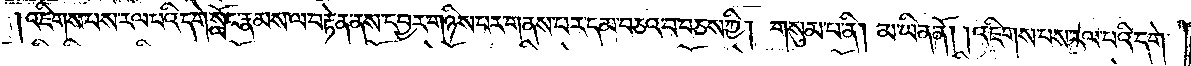།འཇིགས་པས་རལ་པའི་དགེ་སློང་རྣམས་ལ་བརྟེན་ནས་དབྱར་གཉིས་པར་གནས་པར་དམ་བཅའ་བ་བཅས་ཀྱི། གསུམ་པ་ནི། མ་ཡིན་ནོ། །འཇིགས་པས་རལ་པའི་དགེ་
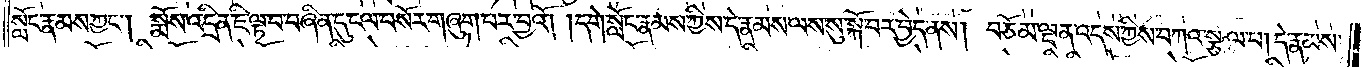སློང་རྣམས་ཀྱང༌། སྨོས་འདྲིན་ཇི་ལྟ་བ་བཞིན་དུ་ངལ་བསོར་གཞུག་པར་བྱའོ། །དགེ་སློང་རྣམས་ཀྱིས་དེ་རྣམས་ལས་སུ་སྐོ་བར་བྱེད་ནས། བཅོམ་ལྡན་འདས་ཀྱིས་བཀའ་སྩལ་པ། དེ་རྣམས་
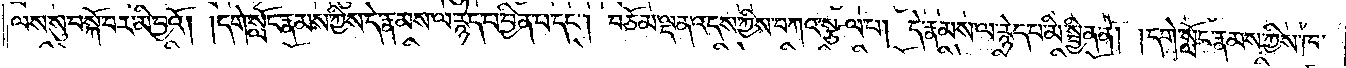ལས་སུ་བསྐོ་བར་མི་བྱའོ། །དགེ་སློང་རྣམས་ཀྱིས་དེ་རྣམས་ལ་རྙེད་པ་བྱིན་པ་དང༌། བཅོམ་ལྡན་འདས་ཀྱིས་བཀའ་སྩལ་པ། དེ་རྣམས་ལ་རྙེད་པ་མི་སྦྱིན་ནོ། །དགེ་སློང་རྣམས་ཀྱིས་ཁ་
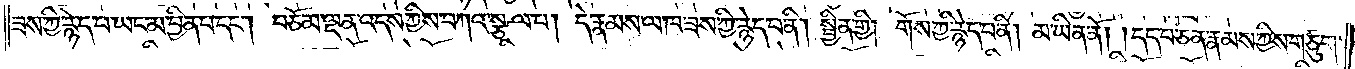ཟས་ཀྱི་རྙེད་པ་ཡང་མ་བྱིན་པ་དང༌། བཅོམ་ལྡན་འདས་ཀྱིས་བཀའ་སྩལ་པ། དེ་རྣམས་ལ་ཁ་ཟས་ཀྱི་རྙེད་པ་ནི། སྦྱིན་གྱི། གོས་ཀྱི་རྙེད་པ་ནི། མ་ཡིན་ནོ། །དད་པ་ཅན་རྣམས་ཀྱིས་གཙུག་
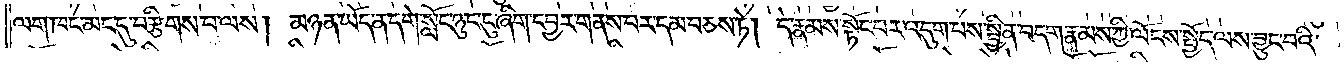ལག་ཁང་མང་དུ་བརྩིགས་པ་ལས། མཉན་ཡོད་ན་དགེ་སློང་ཉུང་ངུ་ཞིག་དབྱར་གནས་པར་དམ་བཅས་ཏེ། དེ་རྣམས་སྟོང་པར་འདུག་པས་སྦྱིན་བདག་རྣམས་ཀྱི་ལོངས་སྤྱོད་ལས་བྱུང་བའི་
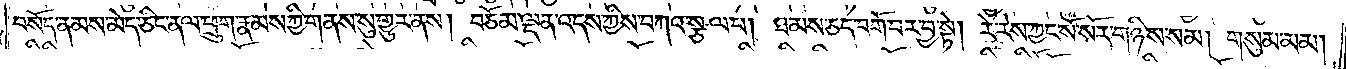བསོད་ནམས་མེད་ཅིང་ནལ་ཕྲུག་རྣམས་ཀྱི་གནས་སུ་གྱུར་ནས། བཅོམ་ལྡན་འདས་ཀྱིས་བཀའ་སྩལ་པ། ཐམས་ཅད་བགོ་བར་བྱ་སྟེ། རེ་རེས་ཀྱང་སོ་སོར་གཉིས་སམ། གསུམ་མམ།
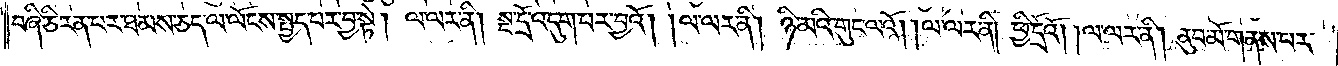བཞི་ཅི་རན་པར་ཐམས་ཅད་ལ་ལོངས་སྤྱད་པར་བྱ་སྟེ། ལ་ལར་ནི། སྔ་དྲོ་འདུག་པར་བྱའོ། །ལ་ལར་ནི། ཉི་མའི་གུང་ལའོ། །ལ་ལར་ནི། ཕྱི་དྲོའོ། །ལ་ལར་ནི། ནུབ་མོ་གནས་པར་
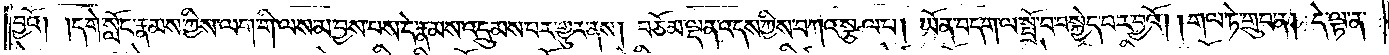བྱའོ། །དགེ་སློང་རྣམས་ཀྱིས་ལག་གི་ལས་མ་བྱས་པས་དེ་རྣམས་འདྲུམས་པར་གྱུར་ནས། བཅོམ་ལྡན་འདས་ཀྱིས་བཀའ་སྩལ་པ། ཡོན་བདག་ལ་སྤྲོ་བ་བསྐྱེད་པར་བྱའོ། །གལ་ཏེ་གྲུབ་ན། དེ་ལྟ་ན་
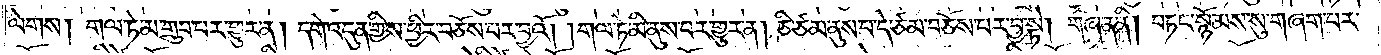ལེགས། གལ་ཏེ་མ་གྲུབ་པར་གྱུར་ན། དགེ་འདུན་གྱིས་ཕྱིར་བཅོས་པར་བྱའོ། །གལ་ཏེ་མི་ནུས་པར་གྱུར་ན། ཅི་ཙམ་ནུས་པ་དེ་ཙམ་བཅོས་པར་བྱ་སྟེ། གཞན་ནི། བཏང་སྙོམས་སུ་གཞག་པར་
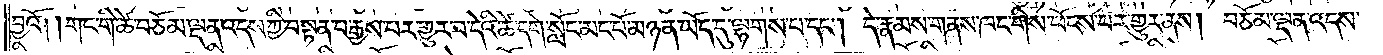བྱའོ། །གང་གི་ཚེ་བཅོམ་ལྡན་འདས་ཀྱི་བསྟན་པ་རྒྱས་པར་གྱུར་པ་དེའི་ཚེ་དགེ་སློང་མང་པོ་མཉན་ཡོད་དུ་ལྷགས་པ་དང༌། དེ་རྣམས་གནས་ཁང་གིས་ཕོངས་པར་གྱུར་ནས། བཅོམ་ལྡན་འདས་
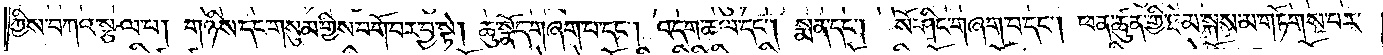ཀྱིས་བཀའ་སྩལ་པ། གཉིས་དང་གསུམ་གྱིས་བགོ་བར་བྱ་སྟེ། ཆུ་སྣོད་གཞག་པ་དང༌། འདག་ཆལ་དང༌། སྨན་དང༌། སོ་ཤིང་གཞག་པ་དང༌། ཕན་ཚུན་གྱི་ཐེམ་སྐས་མ་གཏོགས་པར་
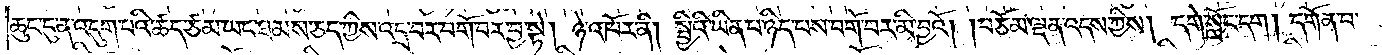ཆུང་ངུ་ན་འདུག་པའི་ཚད་ཙམ་ཡང་ཐམས་ཅད་ཀྱིས་འདྲ་བར་བགོ་བར་བྱ་སྟེ། ཉེ་འཁོར་ནི། སྤྱིའི་ཡིན་པ་ཉིད་པས་བགོ་བར་མི་བྱའོ། །བཅོམ་ལྡན་འདས་ཀྱིས། དགེ་སློང་དག། དགོན་པ་
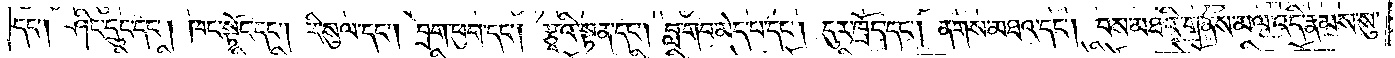དང༌། ཤིང་དྲུང་དང༌། ཁང་སྟོང་དང༌། རི་སུལ་དང༌། བྲག་ཕུག་དང༌། རྩྭའི་སྟན་དང༌། བླ་གབ་མེད་པ་དང༌། དུར་ཁྲོད་དང༌། ནགས་མཐའ་དང༌། བས་མཐའི་གནས་མལ་འདི་རྣམས་སུ་
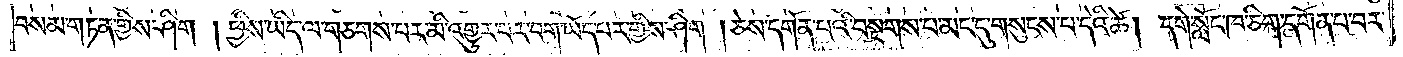བསམ་གཏན་གྱིས་ཤིག། །ཕྱིས་ཡིད་ལ་གཅགས་པར་མི་འགྱུར་བར་བག་ཡོད་པར་གྱིས་ཤིག། ཅེས་དགོན་པའི་བསྔགས་པ་མང་དུ་གསུངས་པ་དེའི་ཚེ། དགེ་སློང་ཁ་ཅིག་དགོན་པ་བར་
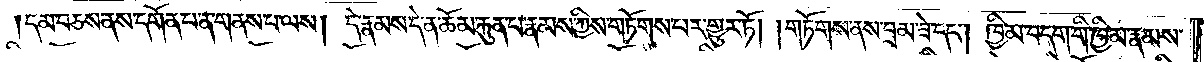དམ་བཅས་ནས་དགོན་པ་ན་གནས་པ་ལས། དེ་རྣམས་དེ་ན་ཆོམ་རྐུན་པ་རྣམས་ཀྱིས་གཏོགས་པར་གྱུར་ཏོ། །གཏོགས་ནས་བྲམ་ཟེ་དང༌། ཁྱིམ་བདག་གི་ཁྱིམ་རྣམས་
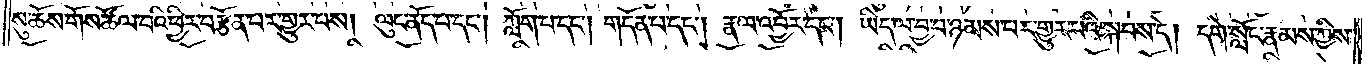སུ་ཆོས་གོས་ཚོལ་བའི་ཕྱིར་བརྩོན་པར་གྱུར་པས། ལུང་ནོད་པ་དང༌། ཀློག་པ་དང༌། གདོན་པ་དང༌། རྣལ་འབྱོར་དང༌། ཡིད་ལ་བྱ་བ་ཉམས་པར་གྱུར་པའི་སྐབས་དེ། དགེ་སློང་རྣམས་ཀྱིས་
